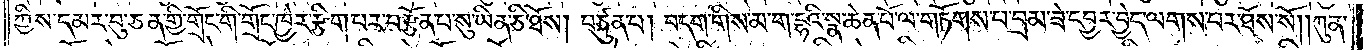ཀྱིས་དམར་བུ་ཅན་གྱི་གྲོང་གི་གྲོང་ཁྱེར་རྩིག་པར་བརྩོན་པ་སུ་ཡིན་ཅི་ཐོས། བཙུན་པ། བདག་གིས་མ་ག་དྷའི་སྣ་ཆེན་པོ་ལ་གཏོགས་པ་བྲམ་ཟེ་དབྱར་བྱེད་ལགས་པར་ཐོས་སོ། །ཀུན་
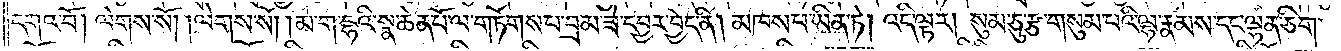དགའ་བོ། ལེགས་སོ། །ལེགས་སོ། །མ་ག་དྷའི་སྣ་ཆེན་པོ་ལ་གཏོགས་པ་བྲམ་ཟེ་དབྱར་བྱེད་ནི། མཁས་པ་ཡིན་ཏེ། འདི་ལྟར། སུམ་ཅུ་རྩ་གསུམ་པའི་ལྷ་རྣམས་དང་ལྷན་ཅིག་
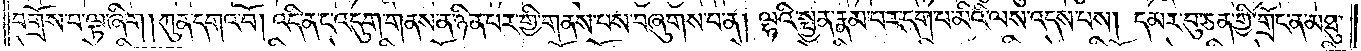བགྲོས་པ་ལྟ་ཞིག །ཀུན་དགའ་བོ། །འདི་ན་ང་འདུག་གནས་ན་ཉིན་པར་གྱི་གནས་པས་བཞུགས་པ་ན། ལྷའི་སྤྱན་རྣམ་པར་དག་པ་མིའི་ལས་འདས་པས། དམར་བུ་ཅན་གྱི་གྲོང་ན་མཐུ་
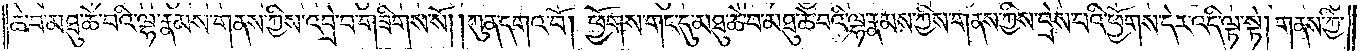ཆེ་བ་མཐུ་ཆེ་བའི་ལྷ་རྣམས་གནས་ཀྱིས་འབྲེ་བ་གཟིགས་སོ། །ཀུན་དགའ་བོ། །ཕྱོགས་གང་དུ་མཐུ་ཆེ་བ་མཐུ་ཆེ་བའི་ལྷ་རྣམས་ཀྱིས་གནས་ཀྱིས་བྲེས་བའི་ཕྱོགས་དེར་འདི་ལྟ་སྟེ། གནས་ཀྱི་
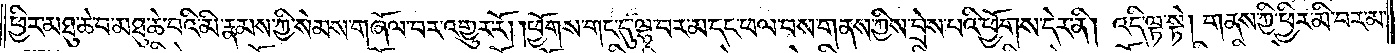ཕྱིར་མཐུ་ཆེ་བ་མཐུ་ཆེ་བའི་མི་རྣམས་ཀྱི་སེམས་གཞོལ་བར་འགྱུར་རོ། །ཕྱོགས་གང་དུ་ལྷ་བར་མ་དང་ཕལ་བས་གནས་ཀྱིས་བྲེས་པའི་ཕྱོགས་དེར་ནི། འདི་ལྟ་སྟེ། གནས་ཀྱི་ཕྱིར་མི་བར་མ་
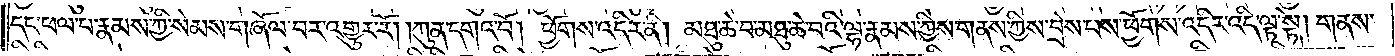དང་ཕལ་པ་རྣམས་ཀྱི་སེམས་གཞོལ་བར་འགྱུར་རོ། །ཀུན་དགའ་བོ། ཕྱོགས་འདིར་ནི། མཐུ་ཆེ་བ་མཐུ་ཆེ་བའི་ལྷ་རྣམས་ཀྱིས་གནས་ཀྱིས་བྲེས་པས་ཕྱོགས་འདིར་འདི་ལྟ་སྟེ། གནས་
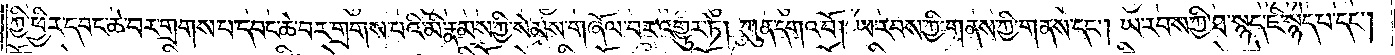ཀྱི་ཕྱིར་དབང་ཆེ་བར་གྲགས་པ་དབང་ཆེ་བར་གྲགས་པའི་མི་རྣམས་ཀྱི་སེམས་གཞོལ་བར་འགྱུར་ཏེ། ཀུན་དགའ་བོ། ཡ་རབས་ཀྱི་གནས་ཀྱི་གནས་དང༌། ཡ་རབས་ཀྱི་ཐ་སྙད་ཇི་སྙེད་པ་དང༌།
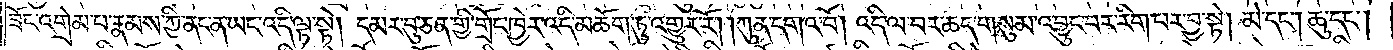ཟོང་འགྲེམ་པ་རྣམས་ཀྱི་ནང་ན་ཡང་འདི་ལྟ་སྟེ། དམར་བུ་ཅན་གྱི་གྲོང་ཁྱེར་འདི་མཆོག་ཏུ་འགྱུར་རོ། །ཀུན་དགའ་བོ། །འདི་ལ་བར་ཆད་གསུམ་འབྱུང་བར་རིག་པར་བྱ་སྟེ། མེ་དང༌། ཆུ་དང༌།
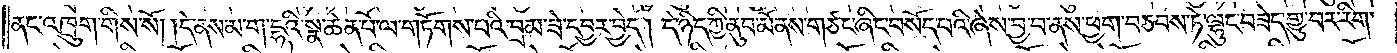ནང་འཁྲུག་གིས་སོ། །དེ་ནས་མ་ག་དྷའི་སྣ་ཆེན་པོ་ལ་གཏོགས་པའི་བྲམ་ཟེ་དབྱར་བྱེད། དེ་ཉིད་ཀྱི་ནུབ་མོ་ནས་གཙང་ཞིང་བསོད་པའི་ཞེས་བྱ་བ་ནས་ཕྱག་བཅབས་ཏེ་ལྷུང་བཟེད་གྱུ་བར་རིག་
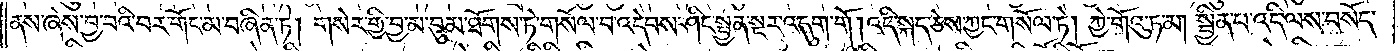ནས་ཞེས་བྱ་བའི་བར་གོང་མ་བཞིན་ཏེ། གསེར་གྱི་བྱ་མ་བུམ་ཐོགས་ཏེ་གསོལ་བ་འདེབས་ཤིང་སྤྱན་སྔར་འདུག་གོ །འདི་སྐད་ཅེས་ཀྱང་གསོལ་ཏེ། ཀྱེ་གོའུ་ཏ་མ། སྦྱིན་པ་འདི་ལས་བསོད་
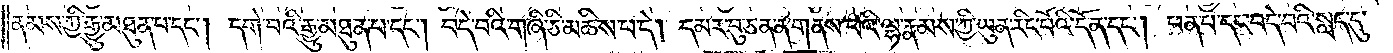ནམས་ཀྱི་རྒྱུ་མཐུན་པ་དང༌། དགེ་བའི་རྒྱུ་མཐུན་པ་དང༌། བདེ་བའི་གཞི་ཅི་མཆིས་པ་དེ། དམར་བུ་ཅན་ན་གནས་པའི་ལྷ་རྣམས་ཀྱི་ཡུན་རིང་པོའི་དོན་དང༌། ཕན་པ་དང་བདེ་བའི་སླད་དུ་
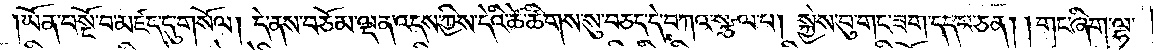ཡོན་བསྔོ་བ་མཛད་དུ་གསོལ། དེ་ནས་བཅོམ་ལྡན་འདས་ཀྱིས་དེའི་ཚེ་ཚིགས་སུ་བཅད་དེ་བཀའ་སྩལ་པ། སྐྱེས་བུ་གང་ཟག་དད་པ་ཅན། །གང་ཞིག་ལྷ་
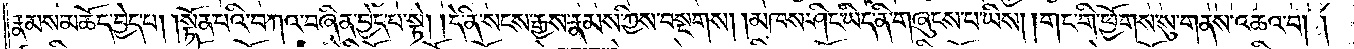རྣམས་མཆོད་བྱེད་པ། །སྟོན་པའི་བཀའ་བཞིན་བྱེད་པ་སྟེ། །དེ་ནི་སངས་རྒྱས་རྣམས་ཀྱིས་བསྔགས། །མཁས་ཤིང་ཡིད་ནི་གཞུངས་པ་ཡིས། །གང་གི་ཕྱོགས་སུ་གནས་འཆའ་བ། །
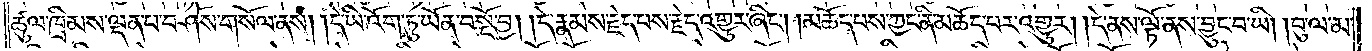ཚུལ་ཁྲིམས་ལྡན་པ་བཤོས་གསོལ་ནས། །དེ་ཡི་འོག་ཏུ་ཡོན་བསྔོ་བྱ། །དེ་རྣམས་རྗེད་པས་རྗེད་འགྱུར་ཞིང༌། །མཆོད་པས་ཀྱང་ནི་མཆོད་པར་འགྱུར། །དེ་ནས་ལྟོ་ནས་བྱུང་བ་ཡིན། །བུ་ལ་མ་
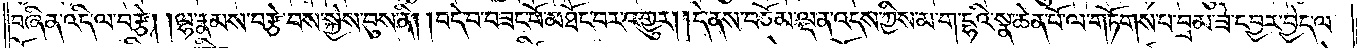བཞིན་འདི་ལ་བརྩེ། །ལྷ་རྣམས་བརྩེ་བས་སྐྱེས་བུས་ནི། །བདེ་བ་བཟང་པོ་མཐོང་བར་འགྱུར། །དེ་ནས་བཅོམ་ལྡན་འདས་ཀྱིས་མ་ག་དྷའི་སྣ་ཆེན་པོ་ལ་གཏོགས་པ་བྲམ་ཟེ་དབྱར་བྱེད་ལ་
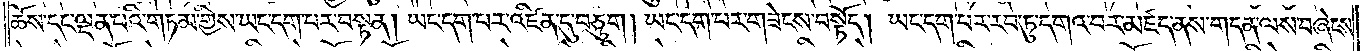ཆོས་དང་ལྡན་པའི་གཏམ་གྱིས་ཡང་དག་པར་བསྟན། ཡང་དག་པར་འཛིན་དུ་བཅུག །ཡང་དག་པར་གཟེངས་བསྟོད། ཡང་དག་པར་རབ་ཏུ་དགའ་བར་མཛད་ནས་གདན་ལས་བཞེངས་
